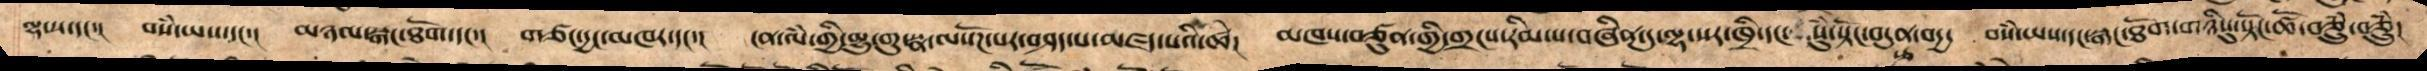ལྷ་ས་དང་།   བསཾ་ཡས་དང་།   མཉལ་སྒང་ཐོག་དང་།   གཙང་དྱང་མཁར་དང་།   ངན་ལཾ་གྱི་མྱུ་གུ་སྣ་ལསོཌ་པར་བཤད་པ་མཛད་པའི་ཚེ།   མཁས་བཙུན་གྱི་གྲངས་རིམ་པ་བཞིན་དུ་ལྷ་སར་ཁྲི་དང་སུཾ་སྟོང་བདུན་བདྱ་  བསཾ་ཡས་དང་སྒང་ཐོག་གཉིསུ་སྟོང་ཚོ་བཅྲུཾ་བཅྲུཾ།
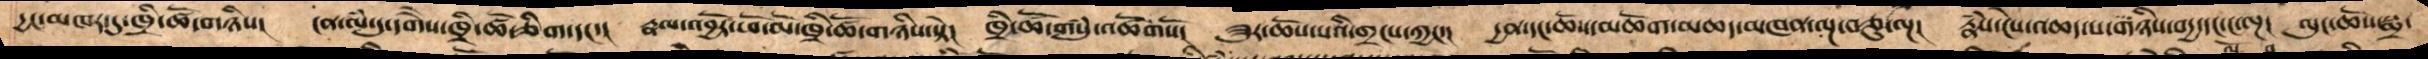དྱང་མཁར་དུ་ཁྲི་ཚོ་གཉིས།     ངན་ལཾ་དུ་དགཻས་ཁྲི་ཚོ་ཅིག་དང་།   རྣལ་འབྱོར་ཕོ་མོ་ཁྲི་ཚོ་གཉིས་སྟེ།   ཁྲི་ཚོ་གསུཾ་འཚོགསོ།   ཟུར་ཆོས་པའི་གྲངས་ཀྱང་།   དྱན་དང་ཆོས་མཆོག་འཆད་མཁན་ལྔ་བཅུ་ལྔ།   རྣཾས་ངེས་འཆད་པ་གཉིས་བདྱ་ང་ལྔ།   ལུང་ཆོས་སྨྲ་
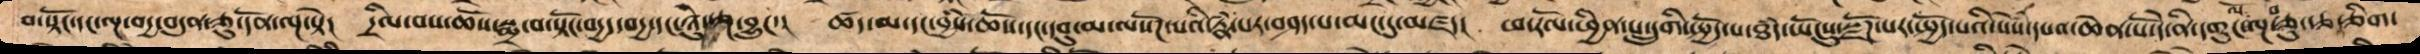བ་སྟོང་དང་ལྔ་བདྱ་བདུན་ཅུ་དོན་ལྔ་སྟེ།   དྲིལ་བས་ཆོས་སྨྲ་བ་སྟོང་བརྒྱད་བདྱ་བདྱ་དང་ཉིུ་རྩ་ལྔ་བྱུང་།   ཚད་མ་དང་བྱཾས་ཆོས་དང་དབུ་མ་ལསོགས་པའི་རྣཾ་པར་བཤད་པ་མང་དུ་མཛད།   ཕ་རོལ་ཏུ་ཕྱིན་པ་དྲུགི་སྤྱོད་པ་ཐཾད་ཡོངསུ་སྫོཌ་པར་སྤྱོད་པའི་སེཾས་དཔའ་ཆེན་པོ་དེ་ནི་དགུང་ལོ་ལྔ་བཅུ་རྩ་གཅིག་
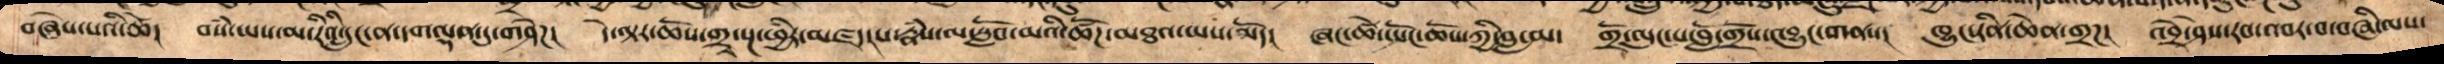བཞེས་པའི་ཚེ།   བསཾ་ཡས་མ་རིནི་དྲུང་ན་དགལྡན་དུ་གཤེཌ།    དེ་ལྟར་ཆོས་གྲྭ་སྔ་ཕྱིར་མཛད་པ་རྣཾས་ལ་སློབ་མའི་ཚོཌ་མཐའ་ཡས་མོད།   ཞང་ཚེ་སྤོང་ཆོས་ཀྱི་བླ་མ་   གྲོ་ལུང་པ་བློ་གྲོས་འབྱུང་གནས།    ཁྱུང་རིན་ཆེན་གྲཌ།   འབྲེ་ཤེས་རབ་འབར་བ་བཞི་ལས་
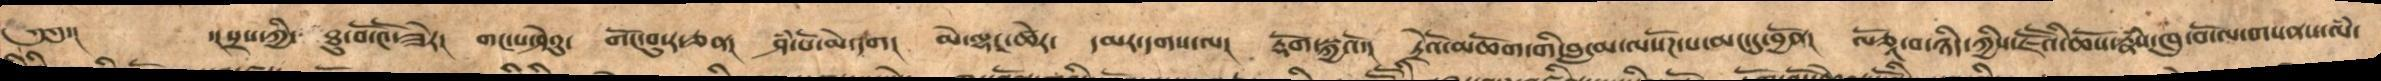༄༅་།    ་།སྲས་ཀྱི་  ཐུ་བོ་༤ོ་ཟེར།   གང་པ་ཤེའུ་   གོང་བུ་ར་ཅན།   ཤཾ་པོ་མེ་དག།   མེ་ལྷང་ཚེར་   དམར་དགས་ལ།   རྡོག་སྐྱའོ་།   ཏྲེའོ་མཆོག་གི་བླ་མ་ལསོཌ་པ་མང་དུ་བྱོན།   ལོཙཱ་བ་ཉིད་ཀྱིས་ཇཽའི་ཆོས་རྣཾས་ཁུ་བོ་ལ་གསནས་ལཾ་
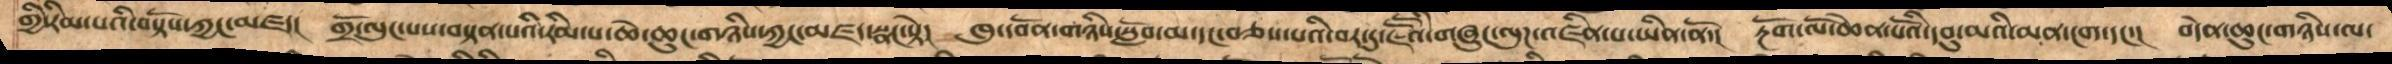གྱི་རིམ་པའི་བསྟོས་ཀྱང་མཛད།   གྲོ་ལུང་པས་བསྟན་པའི་རིམ་པ་ཆེ་ཆུང་གཉིས་ཀྱང་མཛད་སྣང་སྟེ།    ཁུ་དབོན་གཉིས་་སློབ་མ་དང་བཅས་པའི་བར་དུ་ཇཽའི་གཞུང་ལུཌ་འཛིན་པ་ཡིན་ནོ་།   རྔོག་ལོ་ཆེན་པོའི་དབུ་མའི་མན་ངག་དང་།   བདེན་ཆུང་གཉིས་ལ་
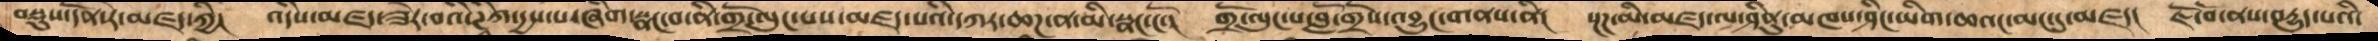བསྡུས་དོན་རེ་མཛད་ཀྱི།   འདིས་མཛད་ཟེར་བའི་ཊཱིཀ་དྱས་པ་ཞིག་སྣང་བ་ནི་གྲོ་ལུང་པས་མཛད་པའི་དཀར་ཆཌ་ན་མི་སྣང་ངོ་།   གྲོ་ལུང་པ་བློ་གྲོས་འབྱུང་གནས་ནི།   སྔཌ་མི་མཛད་ལ་ཤིནུ་མཁས་ཤིང་ཡིག་ཆའང་མང་དུ་མཛད།   ཇོ་བོ་ནས་བདྱུད་པའི་
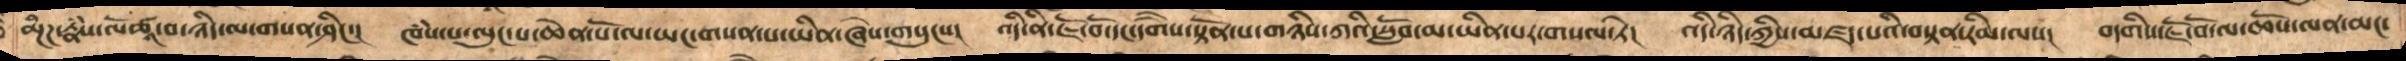བསྔཾཌ་རྣཾས་ལོཙཱ་བ་ཉིད་ལ་གསན་ཤིང་།  ཁཾས་པ་ལུང་པ་ཆེན་པོ་ལ་ཡང་གསན་པ་ཡིན་ཞེས་གསུངས།   འདི་ནི་ཇོ་བོ་དང་དགཻས་སྟོན་པ་གཉིས་ཀའི་སློབ་མ་ཡིན་པར་གསལ་ཏེ།   འདི་ཉིད་ཀྱིས་མཛད་པའི་བསྟན་རིམ་ལས།   བདགིས་ཇོ་བོ་ལ་ཆོས་ལན་མང་
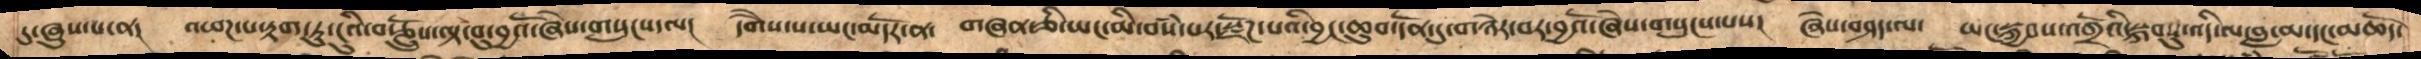དུ་ཞུས་པ་ན།   འཕཌ་པ་རྟག་ཏུ་ངུའི་བརྩོནྲུས་ལྟ་བུ་བྱའོ་ཞེས་གསུངས་ལ།    དགཻས་པ་ཡང་མདོར་ན།   གཞན་ཅི་ཡང་མི་བསཾ་པར་སྫོཌ་པའི་བྱང་ཆུབ་དོན་དུ་གཉེར་བར་བྱའོ་ཞེས་གསུངས་པས།   ཞེས་བཤད་ལ།   ཡང་སྐྱབས་འགྲོའི་སྐབསུ་འདི་ལ་བླ་མ་དང་མཆོད་
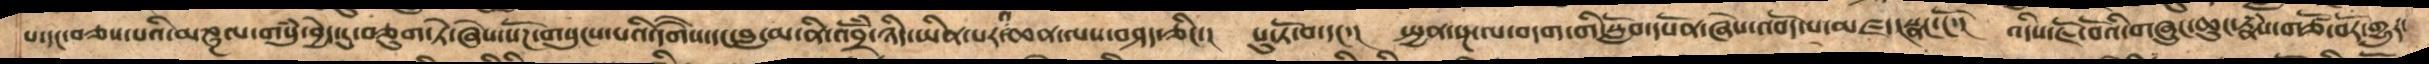པ་དང་བཅས་པའི་མཎྜལ་གསུཾ་བྱེད་དུ་བཅུག་ཏེ་ཞེས་སོཌ་གསུངས་པའི་དགཻས་དང་བླ་མ་ནི་འབྲོཾ་ཉིད་ཡིན་པར་མཆན་ལས་བཤད་ཅིང་།   པུ་ཏོ་བ་དང་།   སྤྱན་སྔ་ལ་བདག་གི་སློབ་དཔོན་ཞེས་འབོད་པ་མཛད་སྣང་ངོ་།   འདིས་ཇོ་བོའི་གཞུང་ཆུང་རྣཾས་གཙོ་བོར་གྱུར་
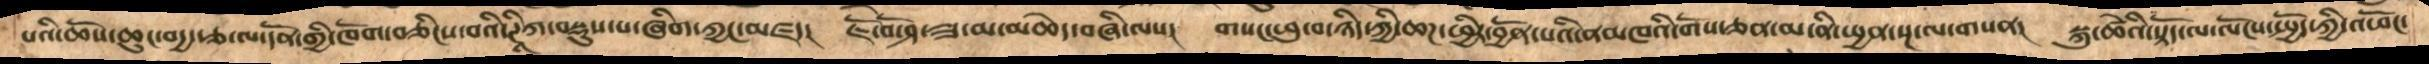པའི་ཆོས་ཆུང་བདྱ་རྩ་ལ་དོན་གྱི་ཁོག་འཅིངས་བའི་ཊཱིཀ་བསྡུས་པ་ཞིག་ཀྱང་མཛད།   ཇོ་བོ་ཤ་ཟ་མ་མཆེད་བཞི་ལས།   གསང་ཕུ་བ་ཉིད་ཀྱི་ཆཌ་ཕྱིར་བྱོན་པའི་ནམཁའི་གོས་ཅན་མ་ནི་སྤྱན་སྔ་ལ་གསན།   སྐུ་ཚེའི་སྟོད་ལ་ལོངས་སྤྱོད་ཀྱི་འཕོང་
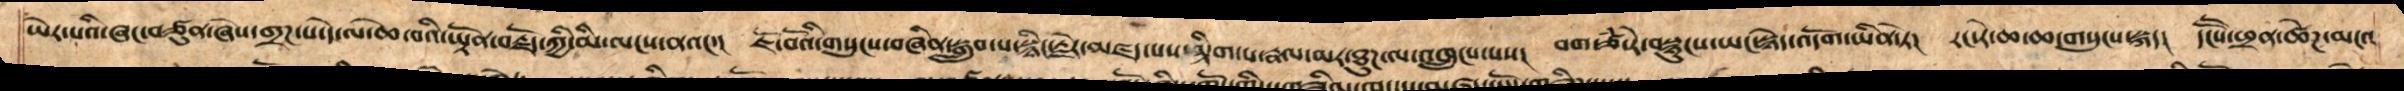ཡེར་པའི་ཞང་བཙུན་ཞེས་གྲཌ་པ་དེ་ལ་ཆེ་བའི་ཡྟོན་བརྗོད་ཀྱི་མི་ལངས་ནའང་།    ཇོ་བོའི་གསུངས་བཞིན་སྒྲུབ་པ་སྙིང་རྗེར་མཛད་པས་མྟིག་པ་རྣལ་མར་ཐུཌ་ལ་འཁྲུངས་པས།  བག་ཙཾ་རེ་བསྙུངས་ཡང་སྙེད་འདོག་ཡིན་ཏེ།  རང་རེ་ཆ་ཆ་གསུངས་སྐད།   དངཽསཕྲན་ཚེཌ་མངའ
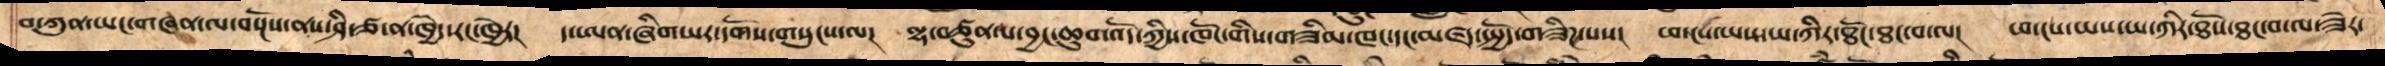བ་ཀུན་ཡང་གཞན་ལ་བསྔོས་ནས་ཤི་ཙ་ན་ཁྱེད་རང་ཁྱེར།   ད་ཨན་ཞིགཡར་དགོས་གསུངས་ལ།   ལྷ་བཙུན་པ་བྱང་ཆུབ་འོད་ཀྱིས་ཁོང་གིས་གཟིམ་ཁང་དང་མཛད་སྤྱོད་གཟིཌ་པས།   ཕ་ངས་ཡས་ཡ་ཀིར་ཐོང་ཐང་བ་ལ། ཕ་ངས་ཡས་ཡ་ཀིར་ཐོས་ཐང་བ་ལ་ཟེར་
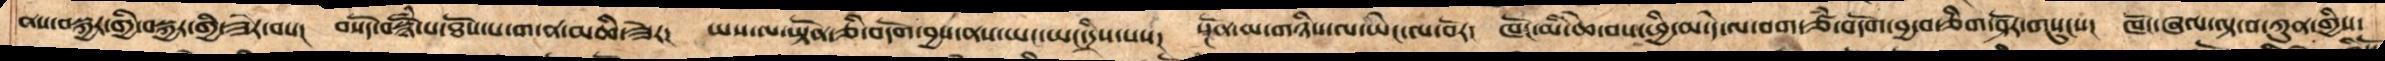ནས་བསྐྱར་གྱི་བསྐྱར་གྱི་ཟེར་བས།   བསོད་སྙོཾས་པ་ཐོས་པ་ག་ན་མཆི་ཟེར།   ཡས་ལ་ཡྟོཏན་ཅི་བདོག་བྱས་ནས་ཡང་ཡང་དྲིས་པས། སྔོན་མ་གཉིས་ལ་ཡེང་ལ་བོར།   ཁོང་མི་ཆེ་བས་ཕྱི་མ་དེ་ལ་བག་ཙཾ་བདོག་བྱ་བ་ཅིག་ཤོར་གསུངས། ཁོང་ཞལ་ལྟ་བ་ཀུན་གྱིས་
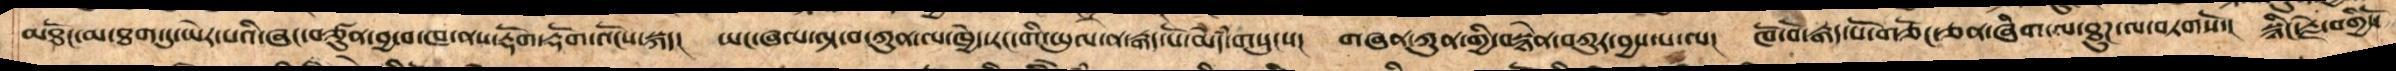མཐོང་མ་ཐག་ཏུ་ཡེར་པའི་ཞང་བཙུན་བྱ་བ་ཁ་ནས་རྡོག་རྡོག་འོངས་སྐད།   ཡང་ཞལ་ལྟ་བ་ཀུན་ལ་ཁྱེད་རང་གི་ཡུལ་ན་རྒན་པོ་མེདཾ་གསུངས།   གཞན་ཀུན་གྱི་བསྙེན་བཀུར་བྱས་པ་ལ།  ཁོ་བོ་རྒད་པོ་གཅོང་ཅན་ཞིག་ལ་ཐུཌ་ལ་བཏགསོ་།   སྙིང་རྗེ་བགྱིསོ
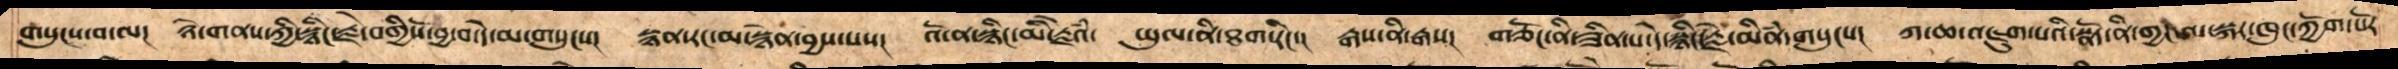གསུངས་བ་ལ།   ཉེ་གནས་ཀྱི་སྙིང་རྗེ་བགྱིསོ་བྱ་བ་དེ་མ་གསུངས། སྙན་རང་མ་སྙན་བྱས་པས།   འོ་ན་སྙིང་མི་རྗེའཾ་   ཡུལ་ནི་ཐག་རིང་།   རྒས་ནི་རྒས།   གཅོང་ནི་ཟིན་པ་དེ་སྙིང་རྗེ་མིནཾ་གསུངས།   ཀ་ཆ་འཇུག་པའི་སྣོད་ནི་གྱང་ལ་སྐར་ཁུང་ཀྱོག་པོར་
